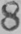8
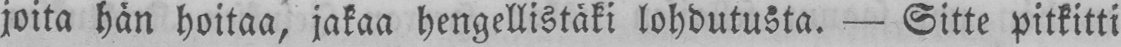joita hän hoitaa, jakaa hengellistäki lohdutusta. — Sitte pitkitti
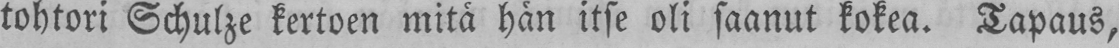tohtori Schulze kertoen mitä hän itse oli saanut kokea. Tapaus,
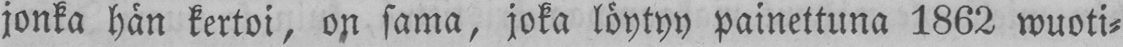jonka hän kertoi, on sama, joka löytyy painettuna 1862 wuoti-
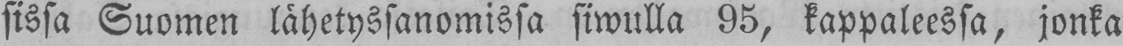sissa Suomen lähetyssanomissa siwulla 95, kappaleessa, jonka
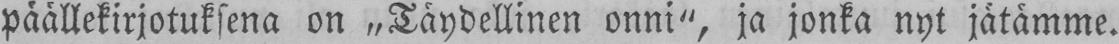päällekirjotuksena on ˶Täydellinen onni", ja jonka nyt jätämme.
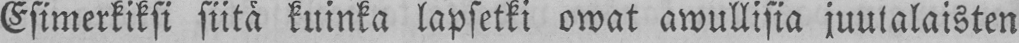Esimerkiksi siitä kuinka lapsetki owat awullisia juulalaisten
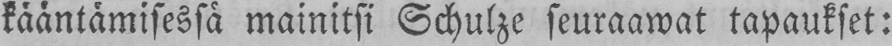kääntämisessä mainitsi Schulze seuraawat tapaukset:
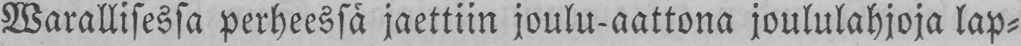Warallisessa perheessä jaettiin joulu-aattona joululahjoja lap-
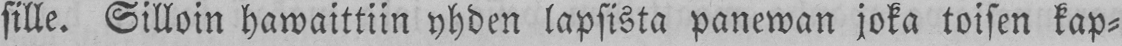sille. Silloin hawaittiin yhden lapsista panewan joka toisen kap-
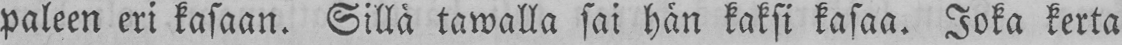paleen eri kasaan. Sillä twalla sai hän kaksi kasaa. Joka kerta
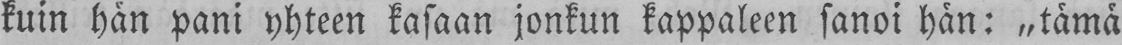kuin hän pani yhteen kasaan jonkun kappaleen sanoi hän: »tämä
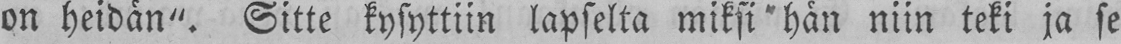on heidän". Sitte kysyttiin lapselta miksi hän niin teki ja se
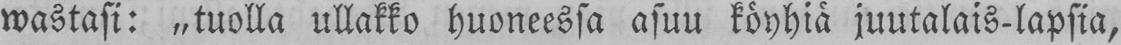wastasi: ˶tuolla ullakko huoneessa asuu köyhiä juutalais-lapsia,
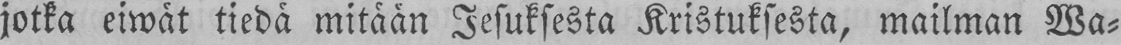jotka eiwät tiedä mitään Jesuksesta Kristuksesta, mailman Wa-
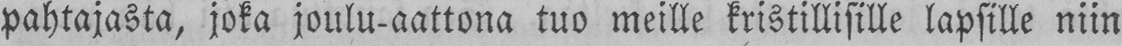pahtajasta, joka joulu-aattona tuo meille kristillisille lapsille niin
